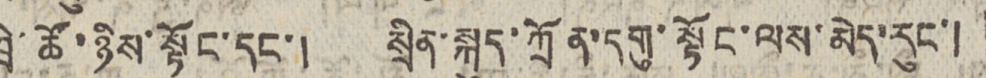ཁྲི་ཚོ་ཉིས་སྟོང་དང་། སྲིན་སྐུད་ཀྲོན་དགུ་སྟོང་ལས་མེད་རུང་།
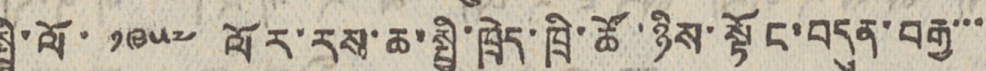སྤྱི་ལོ་ ༡༩༥༧ ལོར་རས་ཆ་སྤྱི་ཁྲེད་ཁྲི་ཚོ་ཉིས་སྟོང་བདུན་བརྒྱ་་་
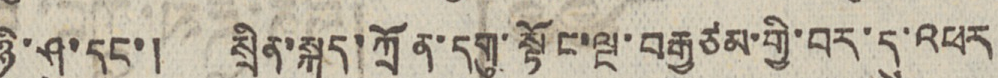ཉི་ཤུ་དང་། སྲིན་སྐུད་ཀྲོན་དགུ་སྟོང་ལྔ་བརྒྱ ཙམ་གྱི་བར་དུ་འཕར
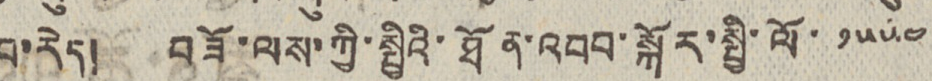བ་རེད། བཟོ་ལས་ཀྱི་སྤྱིའི་ཐོན་འབབ་སྐོར་སྤྱི་ལོ་ ༡༥༥༤
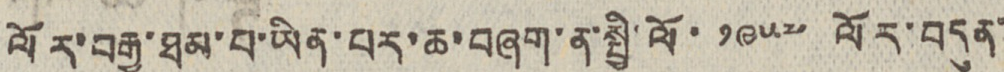ལོར་བརྒྱ་ཐམ་བ་ཡིན་པར་ཆ་བཞག་ན་སྤྱི་ལོ་ ༡༩༥༧ ལོར་བདུན་
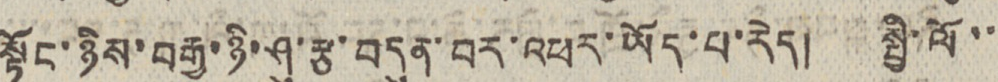སྟོང་ཉིས་བརྒྱ་ཉི་ཤུ་རྩ་བདུན་བར་འཕར་ཡོད་པ་རེད། སྤྱི་ལོ་་
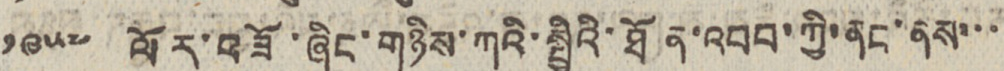༡༩༥༧ ལོར་བཟོ་ཞིང་གཉིས་ཀའི་སྤྱིའི་ཐོན་འབབ་ཀྱི་ནང་ནས་་་
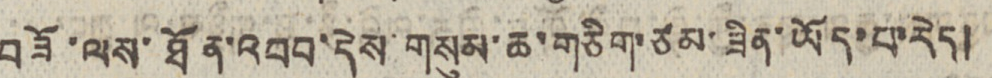བཟོ་ལས་ཐོན་འབབ་དེས་གསུམ་ཆ་གཅིག་ཙམ་ཟིན་ཡོད་པ་རེད།
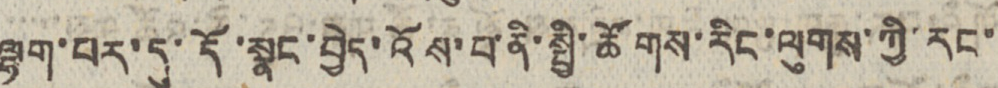ལྷག་པར་དུ་དོ་སྣང་བྱེད་འོས་པ་ནི་སྤྱི་ཚོགས་རིང་ལུགས་ཀྱི་རང་
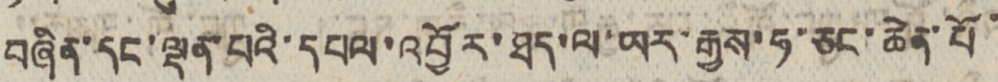བཞིན་དང་ལྡན་པའི་དཔལ་འབྱོར་ཐད་ལ་ཡར་རྒྱས་ཧ་ཅང་ཆེན་པོ་
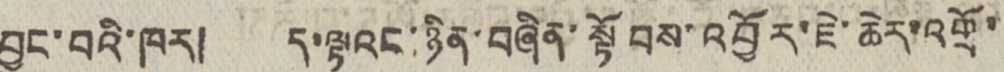བྱུང་བའི་ཁར། ད་ལྟའང་ཉིན་བཞིན་སྟོབས་འབྱོར་ཇེ་ཆེར་འགྲོ་
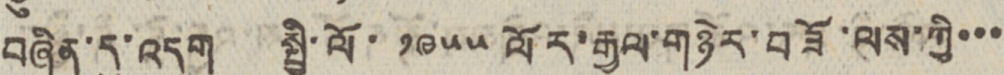བཞིན་དུ་འདུག སྤྱི་ལོ་ ༡༩༥༥ ལོར་རྒྱལ་གཉེར་བཟོ་ལས་ཀྱི་་་
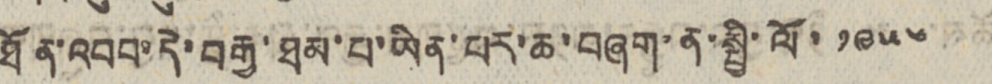ཐོན་འབབ་དེ་བརྒྱ་ཐམ་པ་ཡིན་པར་ཆ་བཞག་ན་སྤྱི་ལོ་ ༡༩༥༥
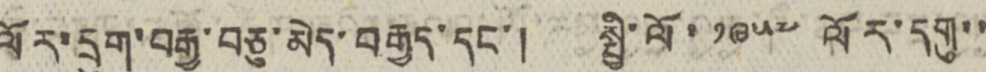ལོར་དྲུག་བརྒྱ་བཅུ་མེད་བརྒྱད་དང་། སྤྱི་ལོ་ ༡༩༥༧ ལོར་དགུ་་
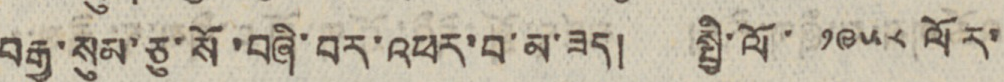བརྒྱ་སུམ་ཅུ་སོ་བཞི་བར་འཕར་བ་མ་ཟད། སྤྱི་ལོ་ ༡༩༥༨ ལོར་
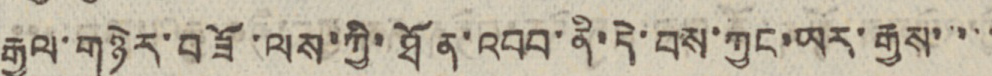རྒྱལ་གཉེར་བཟོ་ལས་ཀྱི་ཐོན་འབབ་ནི་དེ་བས་ཀྱང་ཡར་རྒྱས་་་་
